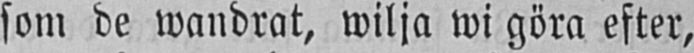som de wandrat, wilja wi göra efter,
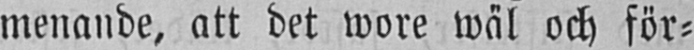menande, att det wore wäl och för-
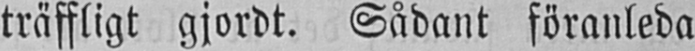träffligt gjordt. Sådant föranleda
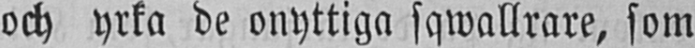och yrka de onyttiga sqwallrare, som
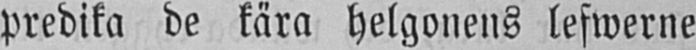predika de kära helgonens lefwerne
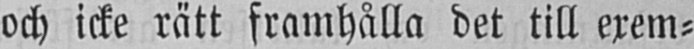och icke rätt framhålla det till exem-
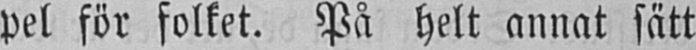pel för folket. På helt annat sätt
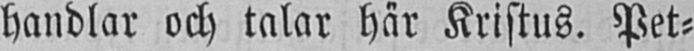handlar och talar här Kristus. Pet-
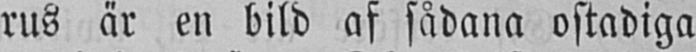rus är en bild af sådana ostadiga
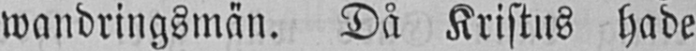wandringsmän. Då Kristus hade
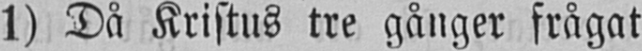1) Då Kristus tre gånger frågat
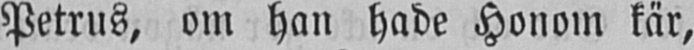Petrus, om han hade Honom kär,
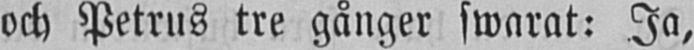och Petrus tre gånger swarat: Ja,
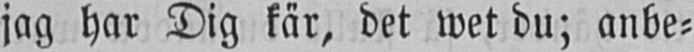jag har Dig kär, det wet du; anbe-
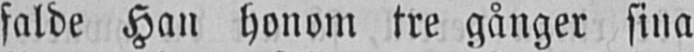falde Han honom tre gånger sina
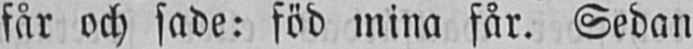får och sade: föd mina får. Sedan
